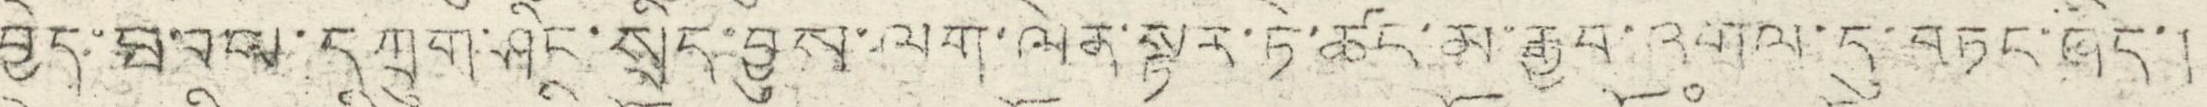བྱེད་ཐབས་དཀྲུག་ཤིང་སྲིད་བྱུས་ལག་ལེན་ལྟར་ཏེ་ཚང་ལ་རྒྱབ་འགྲལ་དུ་བཏང་ཞིད་།
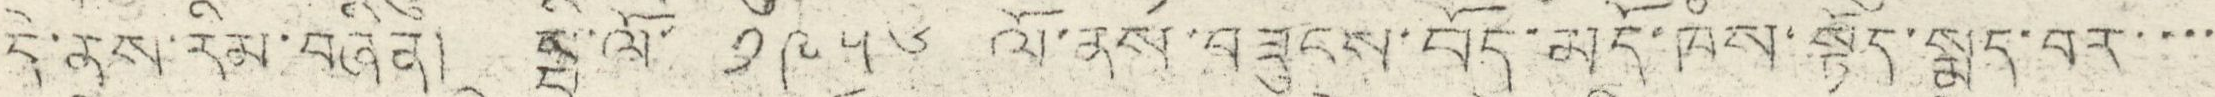དེ་ནས་རིན་བཞིན། སྤྱི་ལོ་ ༡༩༥༦ ལོ་ནས་བཟུངས་བོད་མདོ་ཁཾས་སྟོད་སྨད་བར་་་་
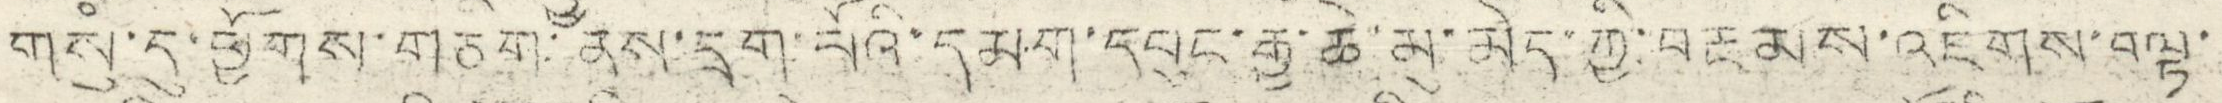གསུཾ་དུ་ཕྱོགས་གཅིག་ནས་དྲག་ལོའི་དམག་དབུང་རྒྱ་ཆེ་མུ་མེད་ཀྱི་བརྔམས་འཇིགས་བསྟ་
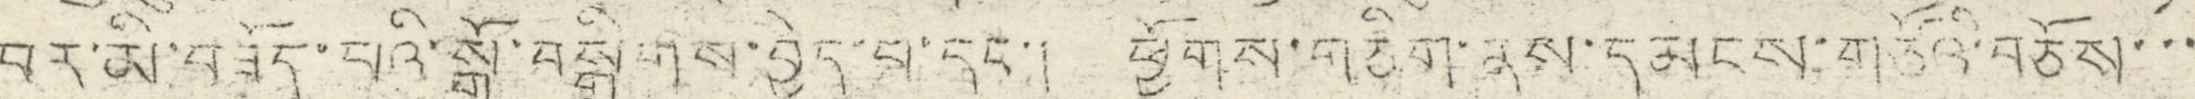བར་མི་བཟོད་པའི་སྒོ་བསྒྲིགས་བྱེད་པ་དང་། ཕྱོགས་གཅིག་ནས་དམངས་གཙོའི་བཅོས་་་
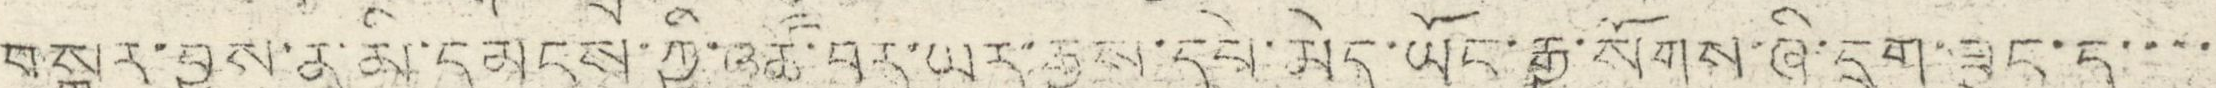བསྒྱུར་བྱས་ན་མི་དམངས་ཀྱི་འཚོ་བར་ཡར་རྒྱས་དཔེ་མེད་ཡོང་རྒྱུ་སོགས་ཞི་དྲག་ཟུང་དུ་་་་
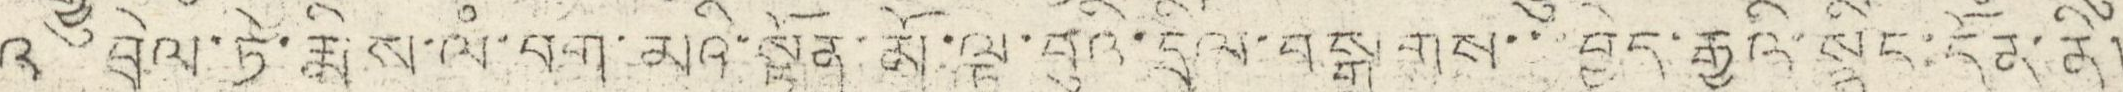འ བྲེལ་ཏེ་རྨིས་ལཾ་བག་མའི་སྟོན་མོ་ལྟ་བུའི་དྲིལ་བསྒྲགས་་་བྱེད་རྒྱུའི་སྙིང་དོན་ནི།
